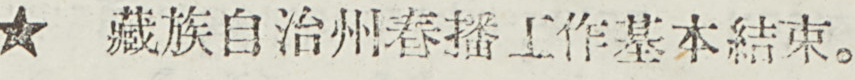★ 藏族自治州春播工作基本結束。
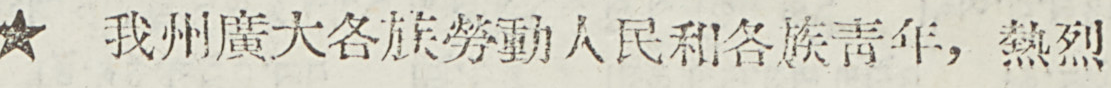★ 我州廣大各族勞動人民和各族靑年，熱烈
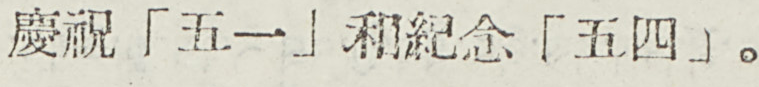慶祝「五一」和紀念「五四」。
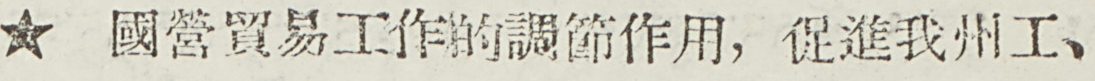★ 國營貿易工作的調節作用，促進我州工、
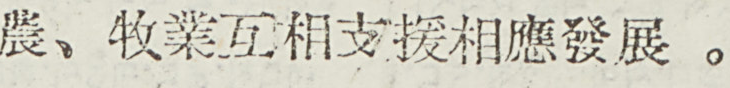農、牧業互相支援相應發展 。
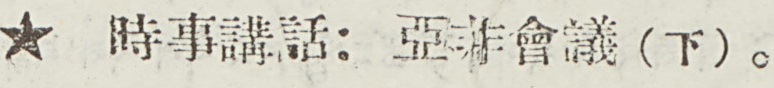★ 時事講話：亞非會議（下）。
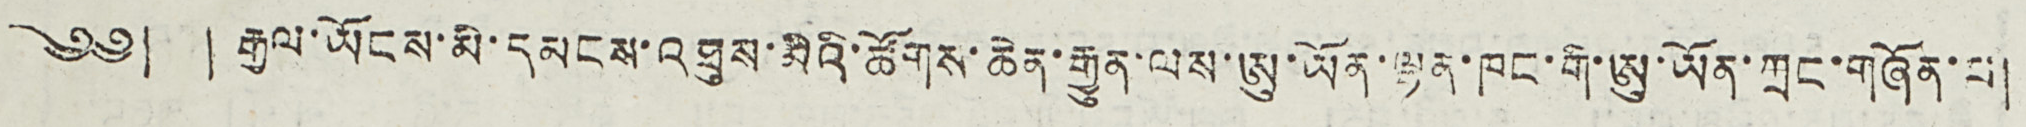༄༅། ། རྒྱལ་ཡོངས་མི་དམངས་འཐུས་མིའི་ཚོགས་ཆེན་རྒྱུན་པས་ཨུ་ཡོན་ལྷན་ཁང་གི་ཨུ་ཡོན་ཀྲང་གཞོན་པ།
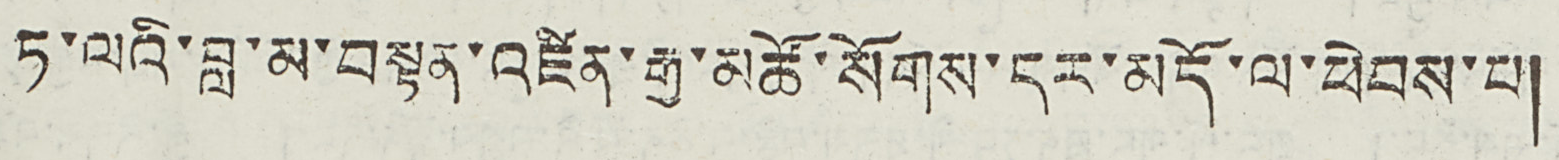ཏ་ལའི་བླ་མ་བསྟན་འཛིན་རྒྱ་མཚོ་སོགས་དར་མདོ་ལ་ཕེབས་པ།
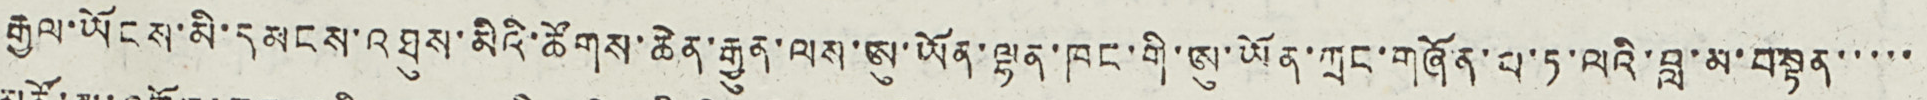རྒྱལ་ཡོངས་མི་དམངས་འཐུས་མིའི་ཚོགས་ཆེན་རྒྱུན་ལས་ཨུ་ཡོན་ལྷན་ཁང་གི་ཨུ་ཡོན་ཀྲང་གཞོན་པ་ཏ་ལའི་བླ་མ་བསྟན་་་་་
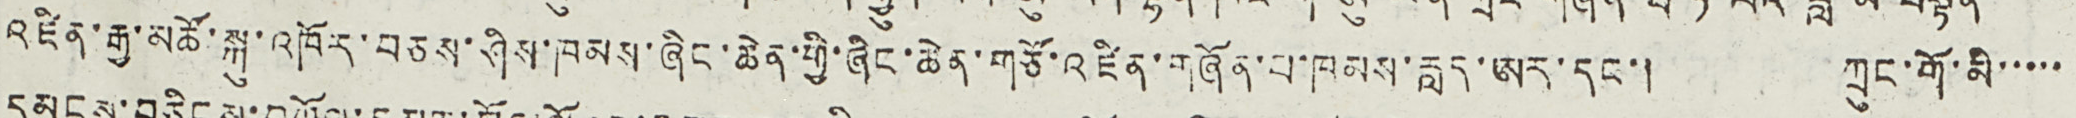འཛིན་རྒྱ་མཚོ་སྐུ་འཁོར་བཅས་ཤིས་ཁམས་ཞིང་ཆེན་གྱི་ཞིང་ཆེན་གཙོ་འཛིན་གཞོན་པ་ཁམས་རླད་ཨར་དང་། ཀྲུང་གོ་མི་་་་་
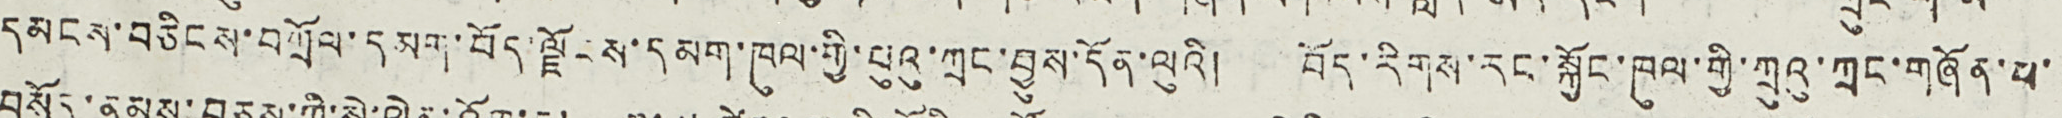དམངས་བཅིངས་བཀྲོལ་དམག་བོད་ལྗོངས་དམག་ཁུལ་གྱི་པུའུ་ཀྲང་བྱུས་དོན་ལུའི། བོད་རིགས་རང་སྐྱོང་ཁུལ་གྱི་ཀྲུའུ་ཀྲང་གཞོན་པ་
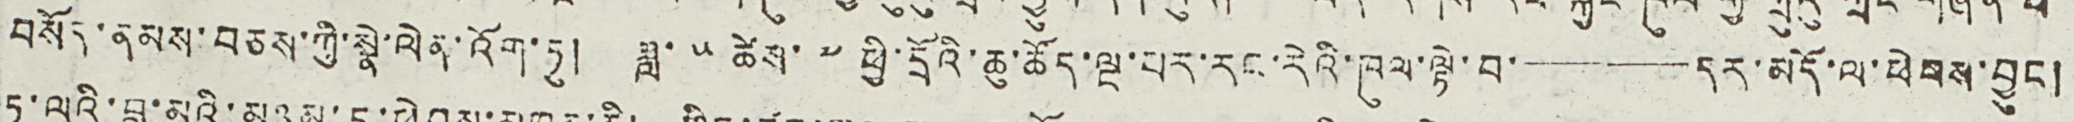བསོད་ནམས་བཅས་ཀྱི་སྣེ་ལེན་འོག་ཏུ། ཟླ་ ༥ ཚེས་ ༧ ཕྱི་དྲོའི་ཆུ་ཚོད་ལྔ་པར་རང་རེའི་ཁུལ་ལྟེ་བ་——དར་མདོ་ལ་ཕེབས་བྱུང །
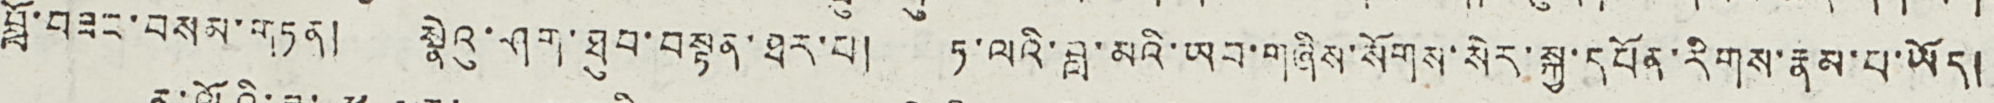བློ་བཟང་བསམ་གཏན། སྣེའུ་ཤག་ཐུབ་བསྟན་ཐར་པ། ཏ་ལའི་བླ་མའི་ཡབ་གཞིས་སོགས་སེར་སྐྱ་དཔོན་རིགས་རྣམ་པ་ཡོད།
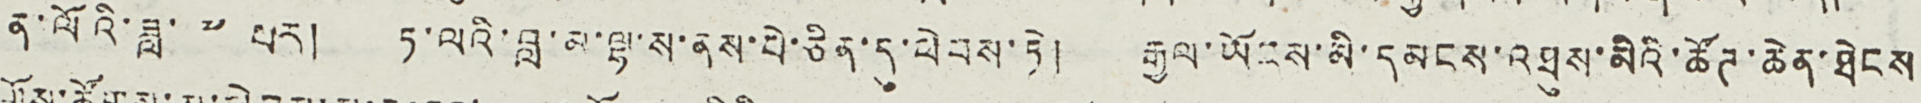ན་ལོའི་ཟླ་ ༧ པར། ཏ་ལའི་བླ་མ་ལྷ་ས་ནས་པེ་ཅིན་དུ་ཕེབས་ཏེ། རྒྱལ་ཡོངས་མི་དམངས་འཐུས་མིའི་ཚོཊ་ཆེན་ཐེངས
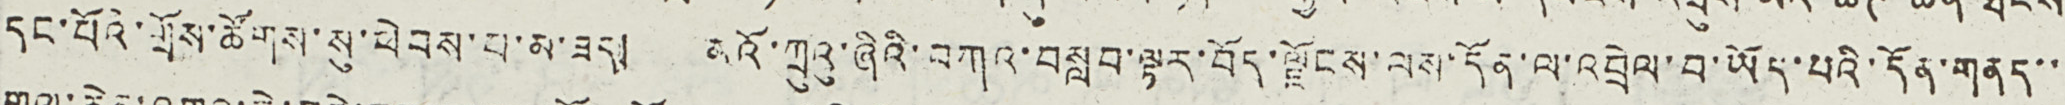དང་པོའི་གྲོས་ཚོགས་སུ་ཕེབས་པ་མ་ཟད། མའོ་ཀྲུའུ་ཞིའི་བཀའ་བསླབ་ལྟར་བོད་ལྗོངས་ལས་དོན་ལ་འབྲེལ་བ་ཡོད་པའི་དོན་གནད་་
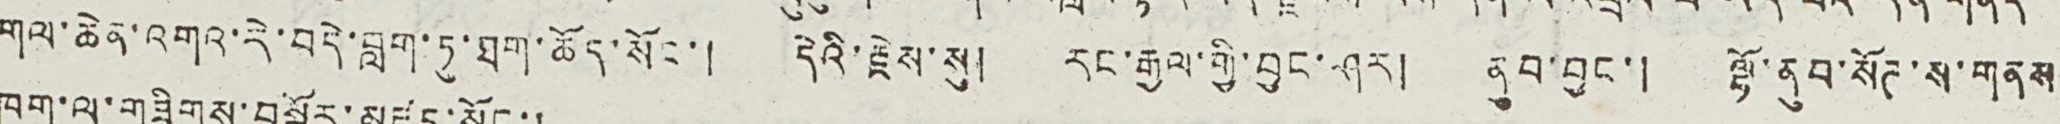གལ་ཆེན་འགའ་རེ་བདེ་བླག་ཏུ་ཐག་ཆོད་སོང་། དེའི་རྗེས་སུ། རང་རྒྱལ་གྱི་བྱང་ཤར། ནུས་བྱང་། ལྷོ་ནུབ་སོཊ་ས་གནས
